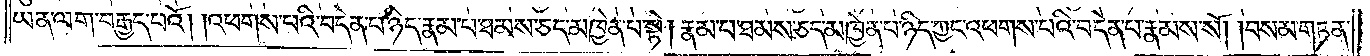ཡན་ལག་བརྒྱད་པའོ། །འཕགས་པའི་བདེན་པ་ཉིད་རྣམ་པ་ཐམས་ཅད་མཁྱེན་པ་སྟེ། རྣམ་པ་ཐམས་ཅད་མཁྱེན་པ་ཉིད་ཀྱང་འཕགས་པའི་བདེན་པ་རྣམས་སོ། །བསམ་གཏན་
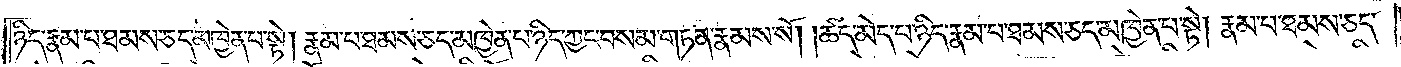ཉིད་རྣམ་པ་ཐམས་ཅད་མཁྱེན་པ་སྟེ། རྣམ་པ་ཐམས་ཅད་མཁྱེན་པ་ཉིད་ཀྱང་བསམ་གཏན་རྣམས་སོ། །ཚད་མེད་པ་ཉིད་རྣམ་པ་ཐམས་ཅད་མཁྱེན་པ་སྟེ། རྣམ་པ་ཐམས་ཅད་
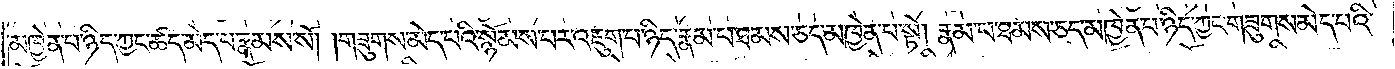མཁྱེན་པ་ཉིད་ཀྱང་ཚད་མེད་པ་རྣམས་སོ། །གཟུགས་མེད་པའི་སྙོམས་པར་འཇུག་པ་ཉིད་རྣམ་པ་ཐམས་ཅད་མཁྱེན་པ་སྟེ། རྣམ་པ་ཐམས་ཅད་མཁྱེན་པ་ཉིད་ཀྱང་གཟུགས་མེད་པའི་
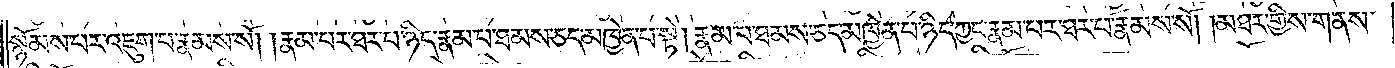སྙོམས་པར་འཇུག་པ་རྣམས་སོ། །རྣམ་པར་ཐར་པ་ཉིད་རྣམ་པ་ཐམས་ཅད་མཁྱེན་པ་སྟེ། རྣམ་པ་ཐམས་ཅད་མཁྱེན་པ་ཉིད་ཀྱང་རྣམ་པར་ཐར་པ་རྣམས་སོ། །མཐར་གྱིས་གནས་
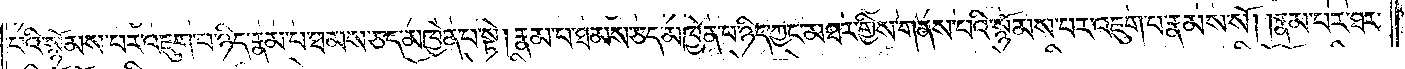པའི་སྙོམས་པར་འཇུག་པ་ཉིད་རྣམ་པ་ཐམས་ཅད་མཁྱེན་པ་སྟེ། རྣམ་པ་ཐམས་ཅད་མཁྱེན་པ་ཉིད་ཀྱང་མཐར་གྱིས་གནས་པའི་སྙོམས་པར་འཇུག་པ་རྣམས་སོ། །རྣམ་པར་ཐར་
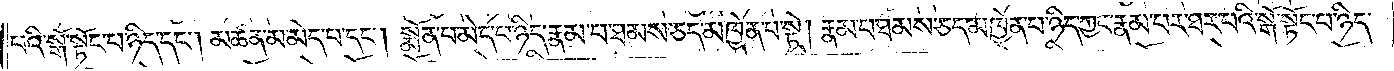པའི་སྒོ་སྟོང་པ་ཉིད་དང༌། མཚན་མ་མེད་པ་དང༌། སྨོན་པ་མེད་པ་ཉིད་རྣམ་པ་ཐམས་ཅད་མཁྱེན་པ་སྟེ། རྣམ་པ་ཐམས་ཅད་མཁྱེན་པ་ཉིད་ཀྱང་རྣམ་པར་ཐར་པའི་སྒོ་སྟོང་པ་ཉིད་
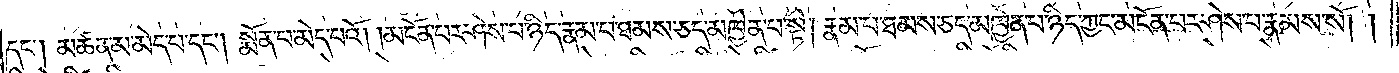དང༌། མཚན་མ་མེད་པ་དང༌། སྨོན་པ་མེད་པའོ། །མངོན་པར་ཤེས་པ་ཉིད་རྣམ་པ་ཐམས་ཅད་མཁྱེན་པ་སྟེ། རྣམ་པ་ཐམས་ཅད་མཁྱེན་པ་ཉིད་ཀྱང་མངོན་པར་ཤེས་པ་རྣམས་སོ། །
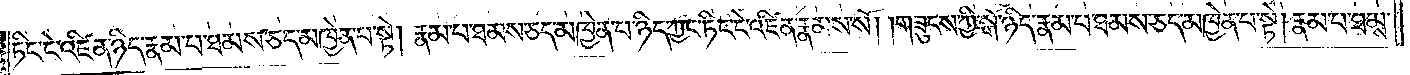ཏིང་ངེ་འཛིན་ཉིད་རྣམ་པ་ཐམས་ཅད་མཁྱེན་པ་སྟེ། རྣམ་པ་ཐམས་ཅད་མཁྱེན་པ་ཉིད་ཀྱང་ཏིང་ངེ་འཛིན་རྣམས་སོ། །གཟུངས་ཀྱི་སྒོ་ཉིད་རྣམ་པ་ཐམས་ཅད་མཁྱེན་པ་སྟེ། རྣམ་པ་ཐམས་
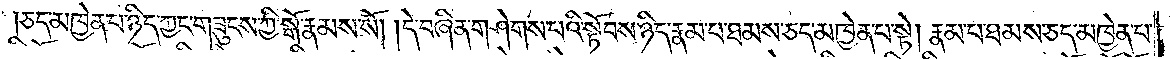ཅད་མཁྱེན་པ་ཉིད་ཀྱང་གཟུངས་ཀྱི་སྒོ་རྣམས་སོ། །དེ་བཞིན་གཤེགས་པའི་སྟོབས་ཉིད་རྣམ་པ་ཐམས་ཅད་མཁྱེན་པ་སྟེ། རྣམ་པ་ཐམས་ཅད་མཁྱེན་པ་
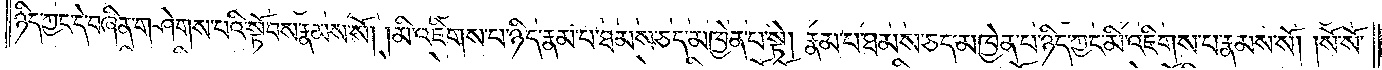ཉིད་ཀྱང་དེ་བཞིན་གཤེགས་པའི་སྟོབས་རྣམས་སོ། །མི་འཇིགས་པ་ཉིད་རྣམ་པ་ཐམས་ཅད་མཁྱེན་པ་སྟེ། རྣམ་པ་ཐམས་ཅད་མཁྱེན་པ་ཉིད་ཀྱང་མི་འཇིགས་པ་རྣམས་སོ། །སོ་སོ་
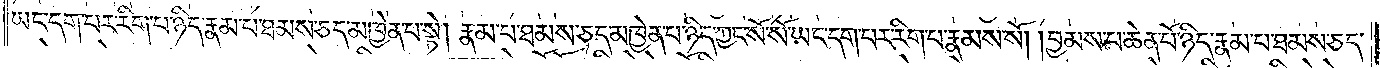ཡང་དག་པར་རིག་པ་ཉིད་རྣམ་པ་ཐམས་ཅད་མཁྱེན་པ་སྟེ། རྣམ་པ་ཐམས་ཅད་མཁྱེན་པ་ཉིད་ཀྱང་སོ་སོ་ཡང་དག་པར་རིག་པ་རྣམས་སོ། །བྱམས་པ་ཆེན་པོ་ཉིད་རྣམ་པ་ཐམས་ཅད་
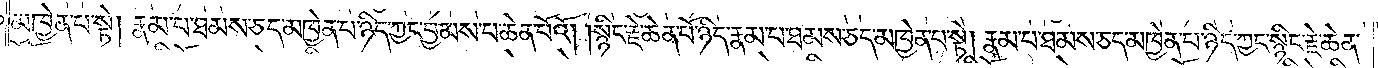མཁྱེན་པ་སྟེ། རྣམ་པ་ཐམས་ཅད་མཁྱེན་པ་ཉིད་ཀྱང་བྱམས་པ་ཆེན་པོའོ། །སྙིང་རྗེ་ཆེན་པོ་ཉིད་རྣམ་པ་ཐམས་ཅད་མཁྱེན་པ་སྟེ། རྣམ་པ་ཐམས་ཅད་མཁྱེན་པ་ཉིད་ཀྱང་སྙིང་རྗེ་ཆེན་
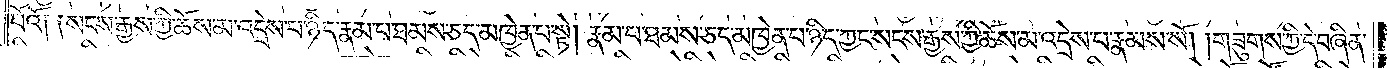པོའོ༑ ༑སངས་རྒྱས་ཀྱི་ཆོས་མ་འདྲེས་པ་ཉིད་རྣམ་པ་ཐམས་ཅད་མཁྱེན་པ་སྟེ། རྣམ་པ་ཐམས་ཅད་མཁྱེན་པ་ཉིད་ཀྱང་སངས་རྒྱས་ཀྱི་ཆོས་མ་འདྲེས་པ་རྣམས་སོ། །གཟུགས་ཀྱི་དེ་བཞིན་
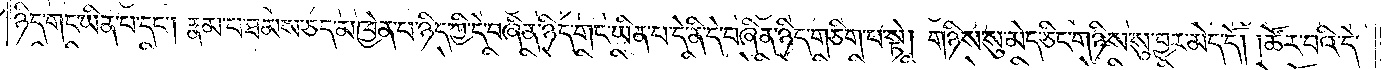ཉིད་གང་ཡིན་པ་དང༌། རྣམ་པ་ཐམས་ཅད་མཁྱེན་པ་ཉིད་ཀྱི་དེ་བཞིན་ཉིད་གང་ཡིན་པ་དེ་ནི་དེ་བཞིན་ཉིད་གཅིག་པ་སྟེ། གཉིས་སུ་མེད་ཅིང་གཉིས་སུ་བྱར་མེད་དོ། །ཚོར་བའི་དེ་
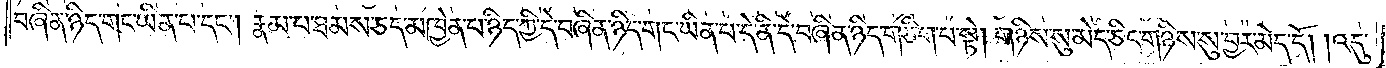བཞིན་ཉིད་གང་ཡིན་པ་དང༌། རྣམ་པ་ཐམས་ཅད་མཁྱེན་པ་ཉིད་ཀྱི་དེ་བཞིན་ཉིད་གང་ཡིན་པ་དེ་ནི་དེ་བཞིན་ཉིད་གཅིག་པ་སྟེ། གཉིས་སུ་མེད་ཅིང་གཉིས་སུ་བྱར་མེད་དོ། །འདུ་
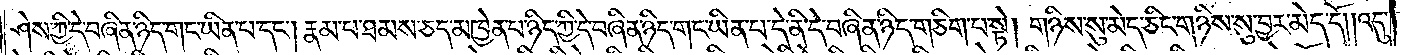ཤེས་ཀྱི་དེ་བཞིན་ཉིད་གང་ཡིན་པ་དང༌། རྣམ་པ་ཐམས་ཅད་མཁྱེན་པ་ཉིད་ཀྱི་དེ་བཞིན་ཉིད་གང་ཡིན་པ་དེ་ནི་དེ་བཞིན་ཉིད་གཅིག་པ་སྟེ། གཉིས་སུ་མེད་ཅིང་གཉིས་སུ་བྱར་མེད་དོ། །འདུ་
